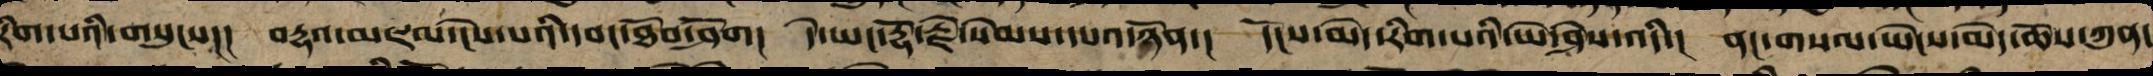རིག་པའི་གསུངས་།།། བརྡའ་མཇལ་ངེས་པའི་དབང་ཐོབ་ཤོག། དེ་ཡང་རྡོ་རྗེ་སེམས་དཔའ་ཉོན་། དངོས་མེད་རིག་པའི་ཡེ་ཤེས་འདི་། ནང་གསལ་ཡེངས་མེད་ཆོས་ཀུན་
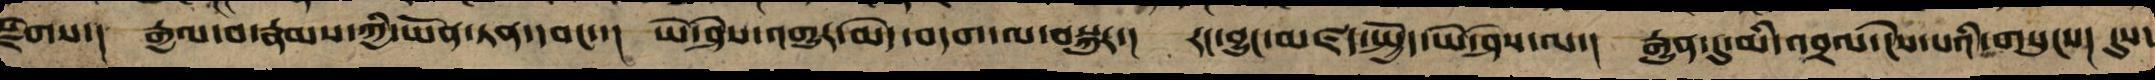སྫོགས་། རྒྱལ་བ་རྣམས་ཀྱི་ཡོན་ཏན་དབང་་། ཡེ་ཤེས་འགྱུར་མེད་བདག་ལ་བསྐུར་། རང་བྱུང་མཛད་སྤྱོད་ཡེ་ཤེས་ལ་། རྒྱུན་དུ་མི་འབྲལ་ངེས་པའི་གསུང་། དུས་
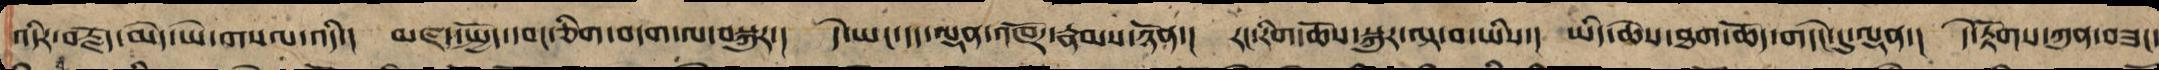འདིར་བརྗོད་མེད་ཡེ་གསལ་འདི་། མཛད་སྤྱོད་དབང་ཅིག་བདག་ལ་བསྐུར་། དེ་ཡང་དད་ལྡན་འཁོར་རྣམས་ཉོན་། རང་རིག་ཆོས་སྐུར་ལྟ་བ་ཡིས་། ཡིད་ཆེས་ཐག་ཆོད་གདེང་དུ་ལྡན་། དེ་རྟོགས་ཀུན་བཟང་
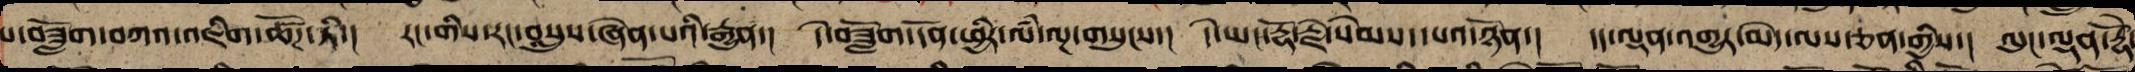པ་བཟློག་དཀའ་འཇིག་ཚོཌ་ཏི་། རང་གིས་རང་བསླུས་ཞེན་པའི་རྒྱུན་། དེ་བཟློག་དོན་ཕྱིར་ལཾ་ལྔ་གསུངས་། དེ་ཡང་རྡོ་རྗེ་སེམས་དཔའ་ཉོན་། དད་ལྡན་འགྱུར་མེད་ལས་ཅན་གྱིས་། ལུང་ལྡན་རྡོེ་
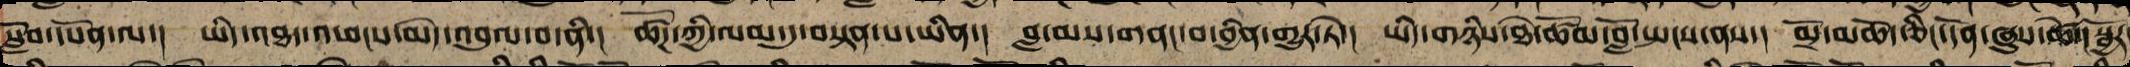སློབ་དཔོན་ལ་། ཡིད་འཐད་ཕོངས་མེད་འབུལ་བ་ནི་། ཚོཌ་ཀྱི་ལམ་དུ་བསྟན་པ་ཡིན་། བླ་མས་གནང་བ་བྱིན་གྱུར་ཏེ་། ཡིད་གཉིས་ཐེ་ཚོམ་བློ་སྤངས་ནས་། མྲོ་མཆོད་ཅིང་དོན་ཞུས་ཚེ་། སྦྱོར
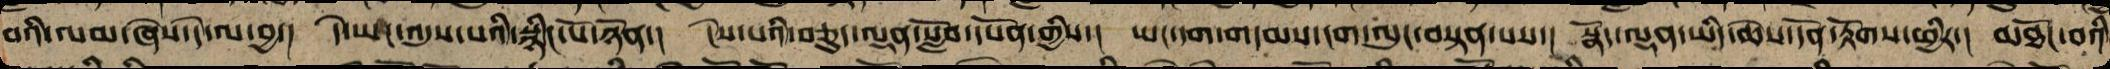བའི་ལམ་ཞེས་དེ་ལ་བྱ་། དེ་ཡང་འདུས་པའི་སྙིང་པོ་ཉོན་། ངེས་པའི་བཅུད་ལྡན་སློབ་དཔོན་གྱིས་། ཡང་དག་གདམས་ངག་ལུང་བསྟན་པས་། སྣོད་ལྡན་ཡིད་ཆེས་དོན་རྟོགས་ཕྱིར་། མཐོང་བའི
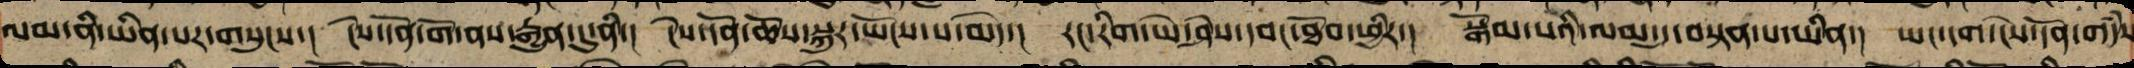ལམ་ནི་ཡིན་པར་གསུངས་། དེ་དོན་གོ་ནས་རྒྱུན་དུ་ནི་། ངེས་དོན་ཆོས་སྐུར་སྤོངས་པ་མེད་། རང་རིག་ཡེ་ཤེས་དབང་ཐོབ་ཕྱིར་། བསྒོམ་པའི་ལམ་དུ་བསྟན་པ་ཡིན་། ཡང་དག་ངེས་དོན་གདཾས་
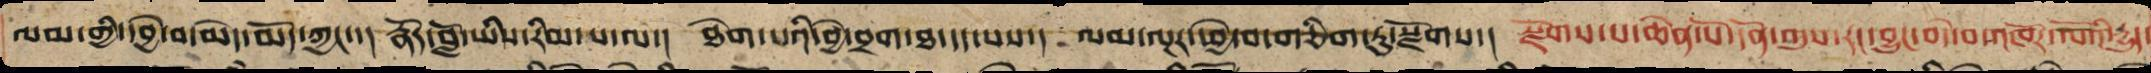ལམ་གྱི་དབྱེ་བ་མེད་མོད་ཀྱང་་། རྣོར་བློ་ཡི་རིམ་པ་ལས་། ཐེག་པའི་བྱེ་བྲག་ཐ་དད་པས་། ལམ་ལྔར་ཕྱེ་བ་གཅིག་ཏུ་སྫོགས་། སྫོགས་པ་ཆེན་པོ་དོན་འདུས་རང་བྱུང་བདེ་བའི་འཁོར་ལོའི་རྒྱུད་
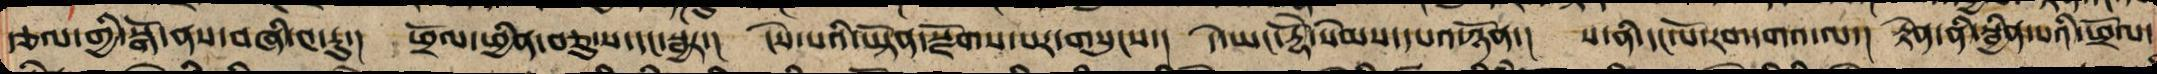རྩལ་གྱི་སྒོ་ནས་བཞི་༤རུ་།།་། ཕྲོལ་ཕྱིན་བཅུ་ས་དང་སྦྱར་། ངེས་པའི་ཡྟོན་སྫོགས་པར་གསུངས་། དེ་ཡང་རྡོཻ་སེམས་དཔའ་ཉོན་། ས་ནི་དང་པོ་རབ་དགའ་ལ་། རྟེན་ནི་སྦྱིན་པའི་ཕྲོལ་
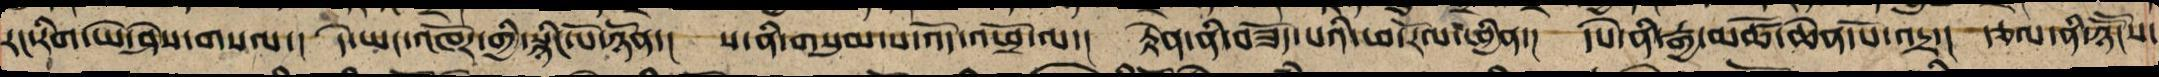རང་རིག་ཡེ་ཤེས་གསལ་། དེ་ཡང་འཁོར་གྱི་སྙིང་པོ་ཉོན་། ས་ནི་གསུམ་པ་འོད་འཕྲོ་ལ་། རྟེན་ནི་བཟོད་པའི་ཕ་རོལ་ཕྱིན་། དཔེ་ནི་རྒྱ་མཚོ་ཆེན་པོ་འདྲ་། རྩལ་ནི་ཉཽངས་
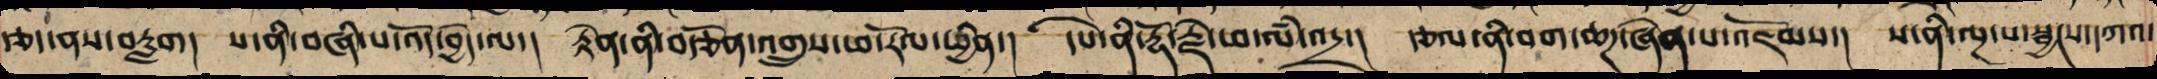རྩད་ནས་བརླག། ས་ནི་བཞི་པ་འོད་བྱེད་ལ་། རྟེན་ནི་བརྩོན་འགྲུས་ཕ་རོལ་ཕྱིན་། དཔེ་ནི་རྡོ་རྗེ་ཕ་ལམ་འདྲ་། རྩལ་ནི་བག་ཆཌ་ཞེན་པ་འཇོམས་། ས་ནི་ལྔ་པ་སྦྱང་དཀའ་
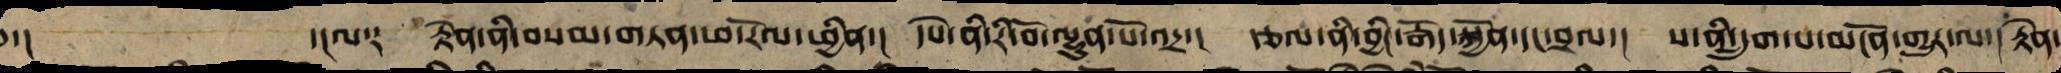༄༅་།   ་།ལ༑  རྟེན་ནི་བསམ་གཏན་ཕ་རོལ་ཕྱིན་།  དཔེ་ནི་རི་བོ་ལྷུན་པོ་འདྲ་།  རྩལ་ནི་བྱིང་རྒོད་སྐྱོན་དང་བྲལ་།  ས་ནི་དྲུག་པ་མངོན་གྱུར་ལ་། རྟེན་
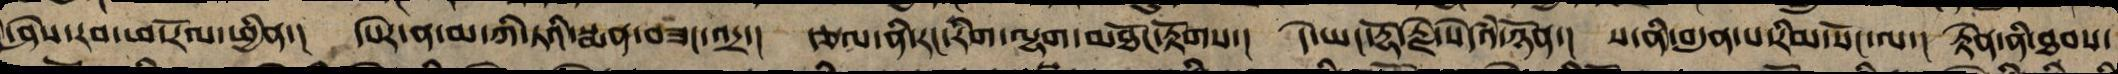་ཤེས་རབ་ཕ་རོལ་ཕྱིན་། དཔེ་ནི་མ་ཀི་ཏ་ཡི་སྨན་བཟང་འདྲ་། རྩལ་ནི་རང་རིག་ལྷག་མཐོང་རྟོགས་། དེ་ཡང་རྡོ་རྗེ་སེདཾའ་ཉོན་། ས་ནི་བདུན་པ་རིང་སོང་ལ་། རྟེན་ནི་ཐབས་
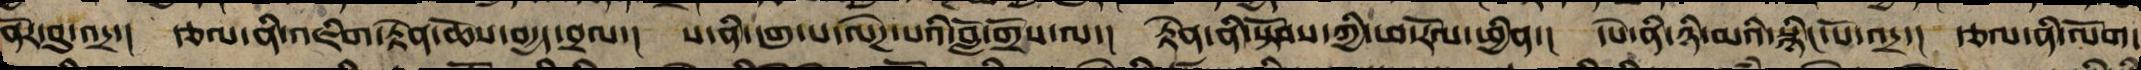ནོར་བུ་འདྲ་། རྩལ་ནི་འཇིག་རྟེན་ཆོས་བརྒྱད་བྲལ་། ས་ནི་དགུ་པ་ལེཌ་པའི་བློ་གྲོས་ལ་། རྟེན་ནི་སྟོབས་ཀྱི་ཕ་རོལ་ཕྱིན་། དཔེ་ནི་ཉི་མའི་སྙིང་པོ་འདྲ་། རྩལ་ནི་ལོག་
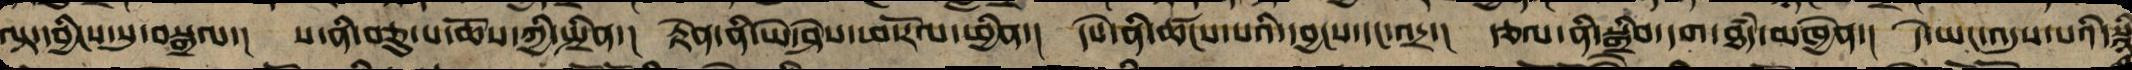ལྟ་དབྱིངས་སུ་བསྒྲལ་། ས་ནི་བཅུ་པ་ཆོས་ཀྱི་སྤྲིན་། རྟེན་ནི་ཡེ་ཤེས་ཕ་རོལ་ཕྱིན་། དཔེ་ནི་ཚངས་པའི་དབྱངས་དང་འདྲ་། རྩལ་ནི་སྒྲིབ་དག་ཐཾད་མཁྱེན་། དེ་ཡང་འདུས་པའི་སྙི
